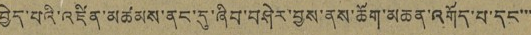བྱེད་པའི་འཛིན་མཚམས་ནང་དུ་ཞིབ་བཤེར་བྱས་ནས་ཆོག་མཆན་འགོད་པ་དང་་་
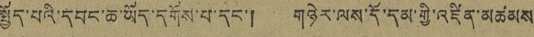སྤྱོད་པའི་དབང་ཆ་ཡོད་དགོས་པ་དང་། གཉེར་ལས་དོ་དམ་གྱི་འཛིན་མཚམས
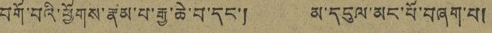བགོ་པའི་ཕྱོགས་རྣམ་པ་རྒྱ་ཆེ་བ་དང་། མ་དངུལ་མང་པོ་བཞག་པ།
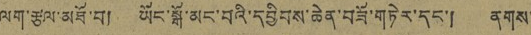ལག་རྩལ་མཐོ་བ། ཡོང་སྒོ་མང་བའི་དབྱིབས་ཆེན་བཟོ་གཏེར་དང་། ནགས་
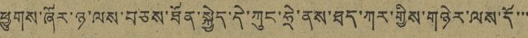ཕྱུགས་ཞོར་ཉ་ལས་བཅས་ཐོན་སྐྱེད་དེ་ཀུང་ཧྲེ་ནས་ཐད་ཀར་གྱིས་གཉེར་ལས་དོ་་་་
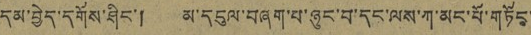དམ་བྱེད་དགོས་ཤིང་། མ་དངུལ་བཞག་པ་ཉུང་བ་དང་ལས་ཀ་མང་པོ་གཏོང་
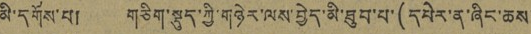མི་དགོས་པ། གཅིག་སྡུད་ཀྱི་གཉེར་ལས་བྱེད་མི་ཐུབ་པ་(དཔེར་ན་ཞིང་ཆས་
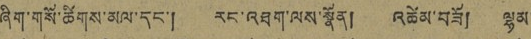ཞིག་གསོ་ཚིགས་མལ་དང་། རང་འཐག་ལས་སྣོན། འཚེམ་བཟོ། ལྷམ་
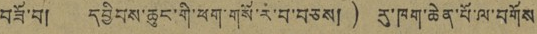བཟོ་བ། དབྱིབས་ཆུང་གི་ཕག་གསོ་ར་བ་བཅས།) རུ་ཁག་ཆེན་པོ་ལ་བགོས
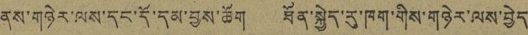ནས་གཉེར་ལས་དང་དོ་དམ་བྱས་ཆོག ཐོན་སྐྱེད་རུ་ཁག་གིས་གཉེར་ལས་བྱེད་
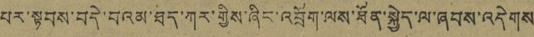པར་སྟབས་བདེ་བའམ་ཐད་ཀར་གྱིས་ཞིང་འབྲོག་ལས་ཐོན་སྐྱེད་ལ་ཞབས་འདེགས
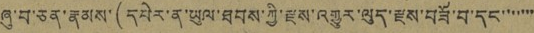ཞུ་བ་ཅན་རྣམས་(དཔེར་ན་ཡུལ་ཐུབས་ཀྱི་རྫས་འགྱུར་ལུད་རྫས་བཟོ་བ་དང་་་་་་་
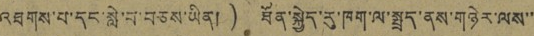འཐགས་པ་དང་སླེ་བ་བཅས་ཡིན།) ཐོན་སྐྱེད་རུ་ཁག་ལ་སྤྲད་ནས་གཉེར་ལས་་
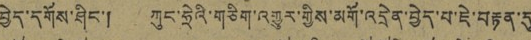བྱེད་དགོས་ཤིང་། ཀུང་ཧྲེའི་གཅིག་འགྱུར་གྱིས་མགོ་འདྲེན་བྱེད་པ་ཇེ་བརྟན་དུ
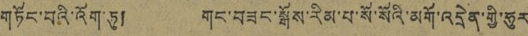གཏོང་བའི་འོག་ཏུ། གང་བཟང་སྒོས་རིམ་པ་སོ་སོའི་མགོ་འདྲེན་གྱི་ཧུར་
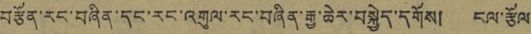བརྩོན་རང་བཞིན་དང་རང་འགུལ་རང་བཞིན་རྒྱ་ཆེར་བསྐྱེད་དགོས། ངལ་རྩོལ་
